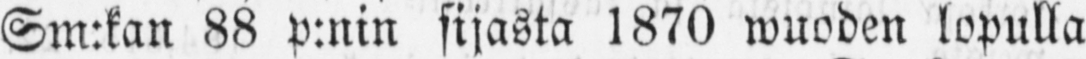Sm:kan 88 p:nin sijasta 1870 wuoden lopulla
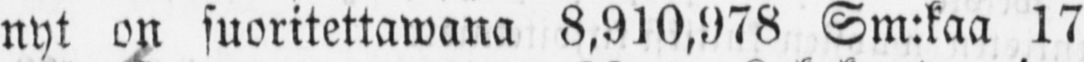nyt on suoritettawana 8,910,978 Sm:kaa 17
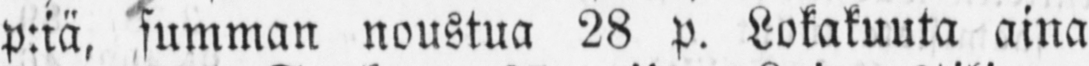p:iä, summan noustua 28 p. Lokakuuta aina
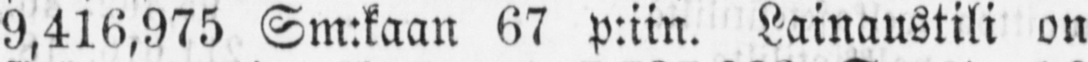9,416,975 Sm:kaan 67 p:iin. Lainaustili on
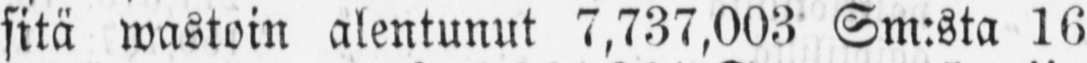sitä wastoin alentunut 7,737,003 Sm:sta 16
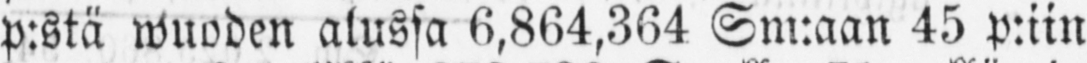p:stä wuoden alussa 6,864,364 Sm:aan 45 p:iin
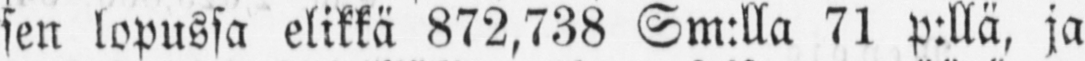sen lopussa elikkä 872,738 Sm:lla 71 p:llä. ja
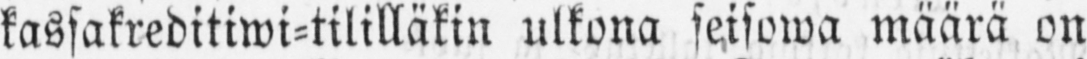kassakreditiwi-tililläkin ulkona seisowa määrä on
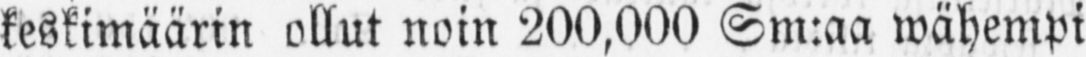keskimäärin ollut noin 200,000 Sm:aa wähempi
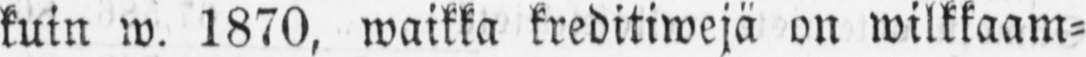kuin w. 1870, waikka kreditiwejä on wilkkaam-
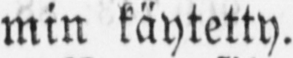min käytetty.
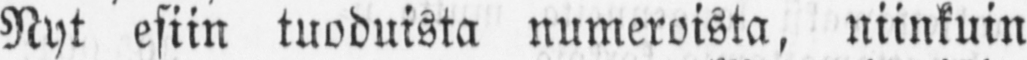Nyt esiin tuoduista numeroista, niinkuin
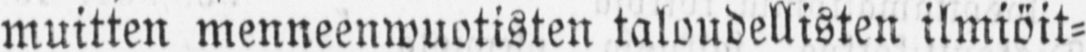muitten menneenwuotisten taloudellisten ilmiöit-
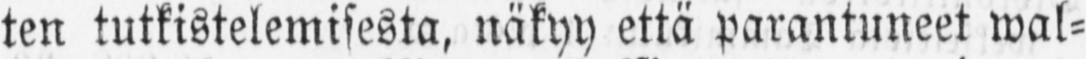ten tutkistelemisesta, näkyy että parantuneet wal-
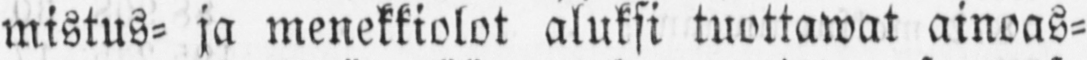mistus- ja menekkiolot aluksi tuottawat ainoas-
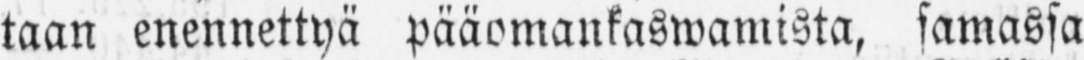taan enennettyä pääomankaswamista, samassa
